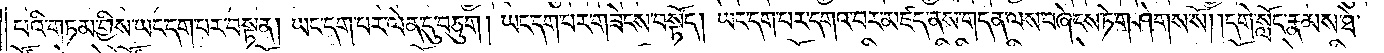པའི་གཏམ་གྱིས་ཡང་དག་པར་བསྟན། ཡང་དག་པར་ལེན་དུ་བཅུག། ཡང་དག་པར་གཟེངས་བསྟོད། ཡང་དག་པར་དགའ་བར་མཛད་ནས་གདན་ལས་བཞེངས་ཏེ་གཤེགས་སོ། །དགེ་སློང་རྣམས་ཐེ་
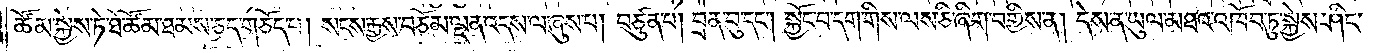ཚོམ་སྐྱེས་ཏེ་ཐེ་ཚོམ་ཐམས་ཅད་གཅོད་པ། སངས་རྒྱས་བཅོམ་ལྡན་འདས་ལ་ཞུས་པ། བཙུན་པ། བྲན་བུ་དང༌། སྐྱོང་བ་དག་གིས་ལས་ཅི་ཞིག་བགྱིས་ན། དེས་ན་ཡུལ་མཐའ་འཁོབ་ཏུ་སྐྱེས་ཤིང་
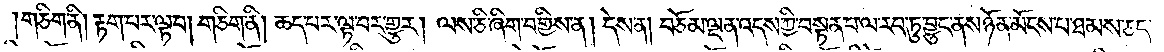།གཅིག་ནི། རྟག་པར་ལྟ་བ། གཅིག་ནི། ཆད་པར་ལྟ་བར་གྱུར། ལས་ཅི་ཞིག་བགྱིས་ན། དེས་ན། བཅོམ་ལྡན་འདས་ཀྱི་བསྟན་པ་ལ་རབ་ཏུ་བྱུང་ནས་ཉོན་མོངས་པ་ཐམས་ཅད་
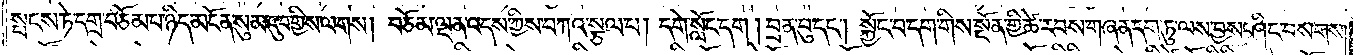སྤངས་ཏེ་དགྲ་བཅོམ་པ་ཉིད་མངོན་སུམ་དུ་བགྱིས་ལགས། བཅོམ་ལྡན་འདས་ཀྱིས་བཀའ་སྩལ་པ། དགེ་སློང་དག །བྲན་བུ་དང༌། སྐྱོང་བ་དག་གིས་སྔོན་གྱི་ཚེ་རབས་གཞན་དག་ཏུ་ལས་བྱས་ཤིང་བསགས་
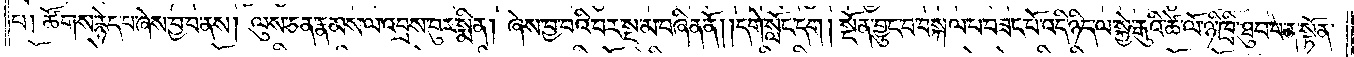པ། ཚོགས་རྙེད་པ་ཞེས་བྱ་བ་ནས། ལུས་ཅན་རྣམས་ལ་འབྲས་བུར་སྨིན། ཞེས་བྱ་བའི་བར་སྔ་མ་བཞིན་ནོ། །དགེ་སློང་དག། སྔོན་བྱུང་བ་བསྐལ་པ་བཟང་པོ་འདི་ཉིད་ལ་སྐྱེ་རྒུའི་ཚེ་ལོ་ཉི་ཁྲི་ཐུབ་པ་ན་སྟོན་
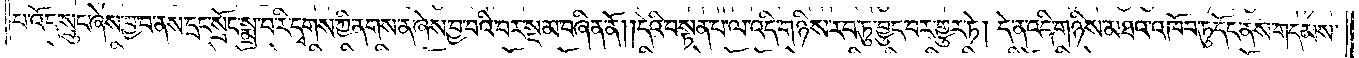པ་འོད་སྲུང་ཞེས་བྱ་བ་ནས་དྲང་སྲོང་སྨྲ་བ་རི་དྭགས་ཀྱི་ནགས་ན་ཞེས་བྱ་བའི་བར་སྔ་མ་བཞིན་ནོ། །དེའི་བསྟན་པ་ལ་འདི་གཉིས་རབ་ཏུ་བྱུང་བར་གྱུར་ཏེ། དེ་ན་འདི་གཉིས་མཐའ་འཁོབ་ཏུ་དོང་ནས་གདམས་
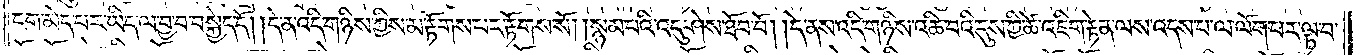ངག་མེད་པར་ཡིད་ལ་བྱ་བ་བསྐྱེད་དོ། །དེ་ན་འདི་གཉིས་ཀྱིས་མ་རྟོགས་པར་རྟོགས་སོ། །སྙམ་པའི་འདུ་ཤེས་ཐོབ་བོ། །དེ་ནས་འདི་གཉིས་འཆི་བའི་དུས་ཀྱི་ཚེ་འཇིག་རྟེན་ལས་འདས་པ་ལ་ལོག་པར་ལྟ་བ་
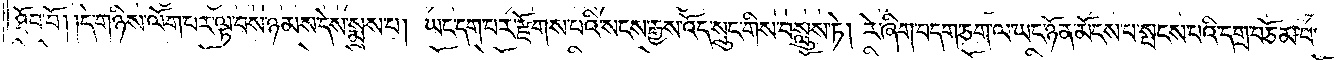ཐོབ་བོ། །དེ་གཉིས་ལོག་པར་ལྟ་བས་ཉམས་དེས་སྨྲས་པ། ཡང་དག་པར་རྫོགས་པའི་སངས་རྒྱས་འོད་སྲུང་གིས་བསླུས་ཏེ། རེ་ཞིག་བདག་ཅག་ལ་ཡང་ཉོན་མོངས་པ་སྤངས་པའི་དགྲ་བཅོམ་པ་
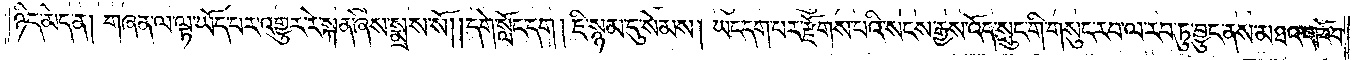ཉིད་མེད་ན། གཞན་ལ་ལྟ་ཡོད་པར་འགྱུར་རེ་སྐན་ཞེས་སྨྲས་སོ། །དགེ་སློང་དག །ཇི་སྙམ་དུ་སེམས། ཡང་དག་པར་རྫོགས་པའི་སངས་རྒྱས་འོད་སྲུང་གི་གསུང་རབ་ལ་རབ་ཏུ་བྱུང་ནས་མཐའ་འཁོབ་
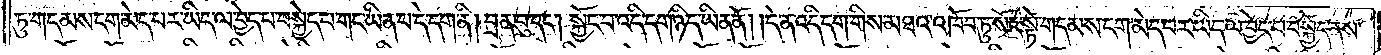ཏུ་གདམས་ངག་མེད་པར་ཡིད་ལ་བྱེད་པ་བསྐྱེད་པ་གང་ཡིན་པ་དེ་དག་ནི། བྲན་བུ་དང༌། སྐྱོང་བ་འདི་དག་ཉིད་ཡིན་ནོ། །དེ་ན་འདི་དག་གིས་མཐའ་འཁོབ་ཏུ་སོང་སྟེ་གདམས་ངག་མེད་པར་ཡིད་ལ་བྱེད་པ་བསྐྱེད་ནས་
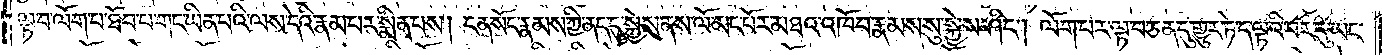ལྟ་བ་ལོག་པ་ཐོབ་པ་གང་ཡིན་པའི་ལས་དེའི་རྣམ་པར་སྨིན་པས། ངན་སོང་རྣམས་ཀྱི་ནད་དུ་སྐྱེས་ནས་ལོ་མང་པོར་མཐའ་འཁོབ་རྣམས་སུ་སྐྱེས་ཤིང༌། ལོག་པར་ལྟ་བ་ཅན་དུ་གྱུར་ཏེ་ད་ལྟའི་བར་དུ་ཡང་
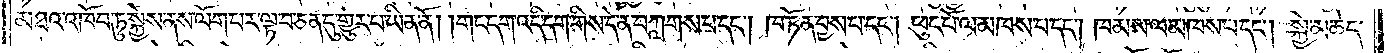མཐའ་འཁོབ་ཏུ་སྐྱེས་ནས་ལོག་པར་ལྟ་བ་ཅན་དུ་གྱུར་པ་ཡིན་ནོ། །གང་དག་འདི་དག་གིས་དེ་ན་བཀླགས་པ་དང༌། ཁ་ཏོན་བྱས་པ་དང༌། ཕུང་པོ་ལ་མཁས་པ་དང༌། ཁམས་ལ་མཁས་པ་དང༌། སྐྱེ་མཆེད་
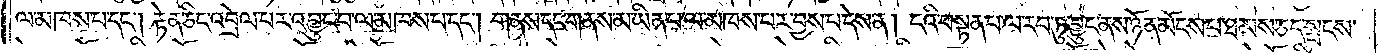ལ་མཁས་པ་དང༌། རྟེན་ཅིང་འབྲེལ་པར་འབྱུང་བ་ལ་མཁས་པ་དང༌། གནས་དང་གནས་མ་ཡིན་པ་ལ་མཁས་པར་བྱས་པ་དེས་ན། ངའི་བསྟན་པ་ལ་རབ་ཏུ་བྱུང་ནས་ཉོན་མོངས་པ་ཐམས་ཅད་སྤངས་
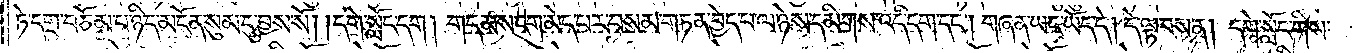ཏེ་དགྲ་བཅོམ་པ་ཉིད་མངོན་སུམ་དུ་བྱས་སོ། །དགེ་སློང་དག། གདམས་ངག་མེད་པར་བསམ་གཏན་བྱེད་པ་ལ་ཉེས་དམིགས་འདི་དག་དང༌། གཞན་ཡང་ཡོད་དེ། དེ་ལྟ་བས་ན། དགེ་སློང་གིས་
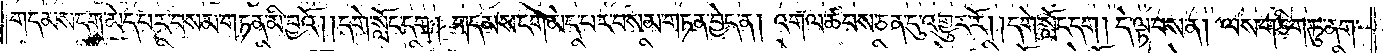གདམས་ངག་མེད་པར་བསམ་གཏན་མི་བྱའོ། །དགེ་སློང་དག། གདམས་ངག་མེད་པར་བསམ་གཏན་བྱེད་ན། འགལ་ཚབས་ཅན་དུ་འགྱུར་རོ། །དགེ་སློང་དག། དེ་ལྟ་བས་ན། ལས་གཅིག་ཏུ་ནག་
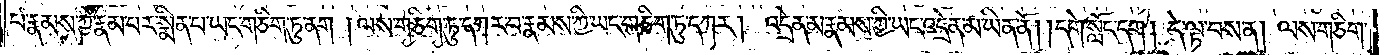པ་རྣམས་ཀྱི་རྣམ་པར་སྨིན་པ་ཡང་གཅིག་ཏུ་ནག །ལས་གཅིག་ཏུ་དཀར་བ་རྣམས་ཀྱི་ཡང་གཅིག་ཏུ་དཀར། འདྲེན་མ་རྣམས་ཀྱི་ཡང་འདྲེན་མ་ཡིན་ནོ། །དགེ་སློང་དག། དེ་ལྟ་བས་ན། ལས་གཅིག་
